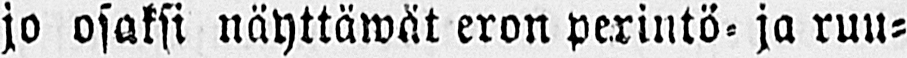jo osaksi näyttäwät eron perintö- ja ruu-
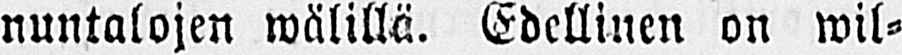nuntalojen wälillä. Edellinen on wil-
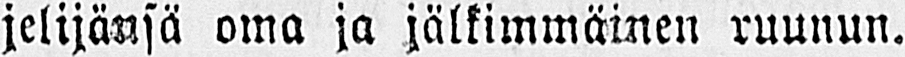jelijänsä oma ja jälkimmäinen ruunun.
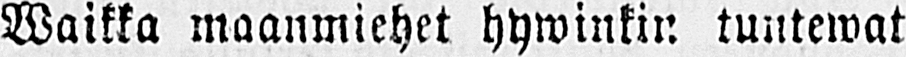Waikka maanmiehet hywinkin tuntewat
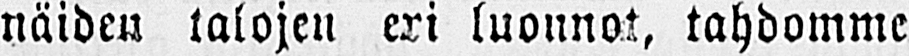näiden talojen eri luonnot, tahdomme
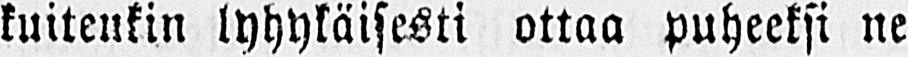kuitenkin lyhykäisesti ottaa puheeksi ne
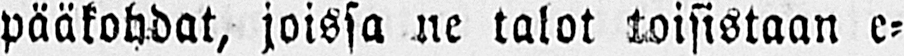pääkohdat, joissa ne talot toisistaan e-
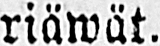riäwät.
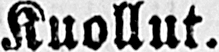Kuollut.
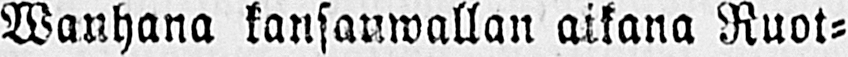Wanhana kansanwallan aikana Ruot-
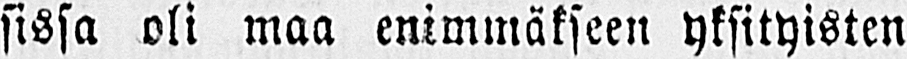sissa oli maa enimmäkseen yksityisten
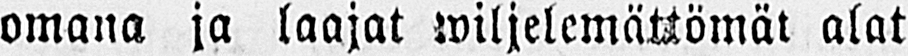omana ja laajat wiljelemättömät alat
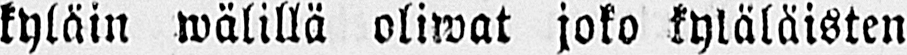kyläin wälillä oliwat joko kyläläisten
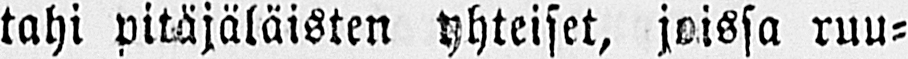tahi pitäjäläisten yhteiset, joissa ruu-
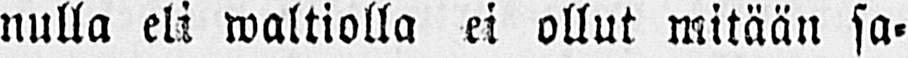nulla eli waltiolla ei ollut mitään sa-
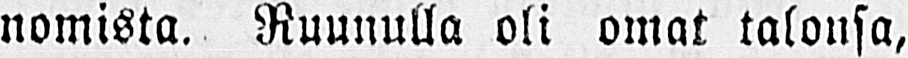nomista. Ruunulla oli omat talonsa,
